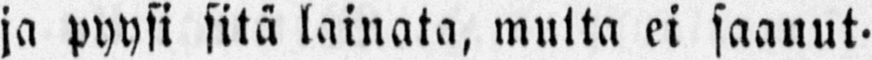ja pyysi sitä lainata, mutta ei saanut-
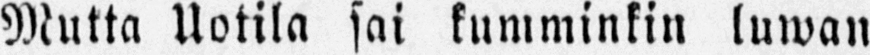Mutta Uotila sai kumminkin luwan
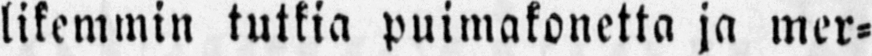likemmin tutkia puimakonetta ja mer-
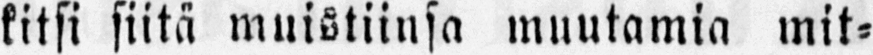kitsi siitä muistiinsa muutamia mit-
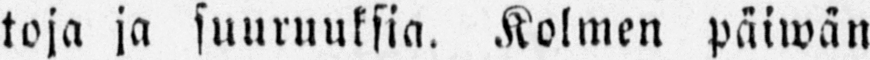toja ja suuruuksia. Kolmen päiwän
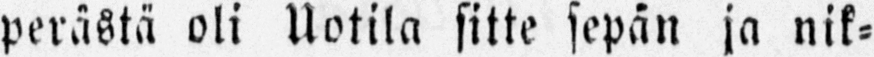perästä oli Uotila sitte sepän ja nik-
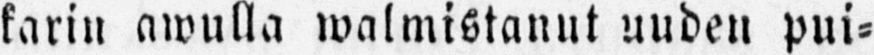karin awulla walmistanut uuden pui-
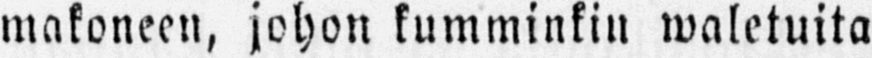makoneen, johon kumminkin waletuita
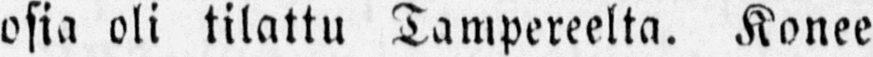osia oli tilattu Tampereelta. Konee
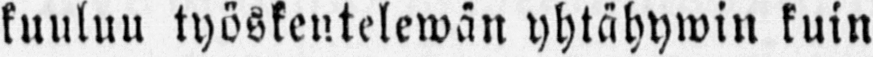kuuluu työskentelewän yhtähywin kuin
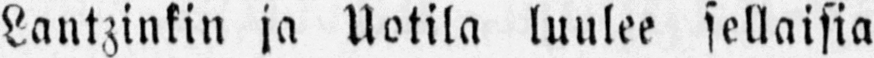Lantzinkin ja Uotila luulee sellaisia
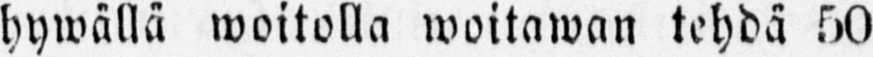hywällä woitolla woitawan tehdä 50
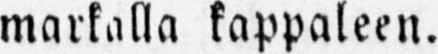markalla kappaleen.
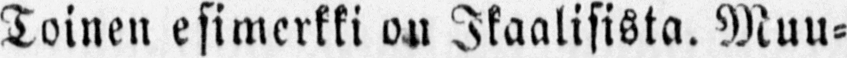Toinen esimerkki on Ikaalisista. Muu-
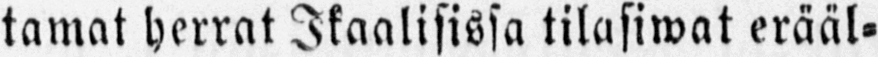tamat herrat Ikaalisissa tilasiwat erääl-
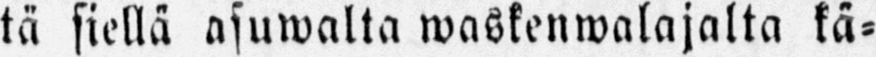tä siellä asuwalta waskenwalajalta kä-
